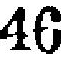46
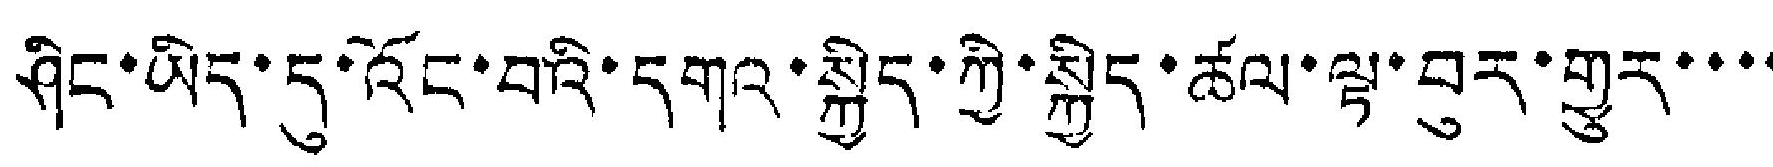ཤིང་ཡིད་དུ་འོང་བའི་དགའ་སྐྱིད་ཀྱི་སྐྱིད་ཚལ་ལྟ་བུར་གྱུར་་་་
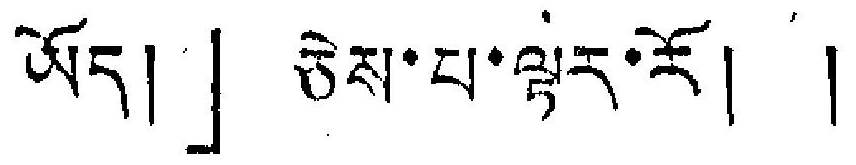ཡོད།」ཅེས་པ་ལྟར་རོ། །
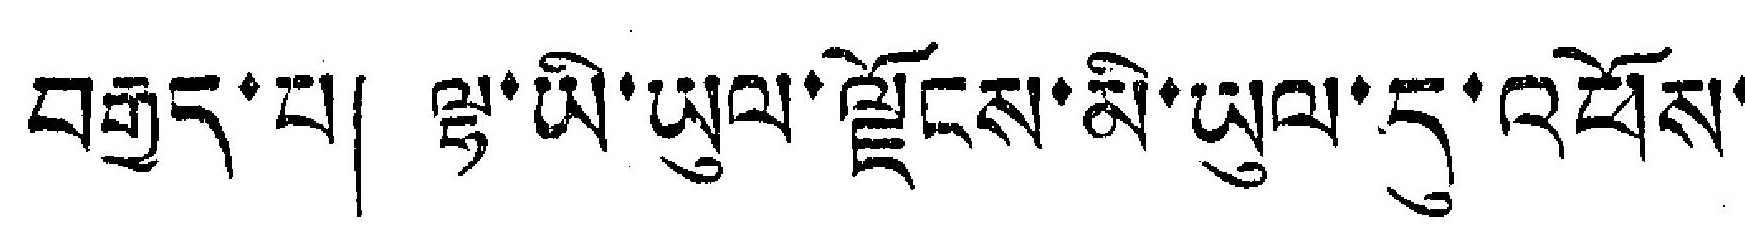བརྒྱད་པ། ལྷ་ཡི་ཡུལ་ལྗོངས་མི་ཡུལ་དུ་འཕོས་
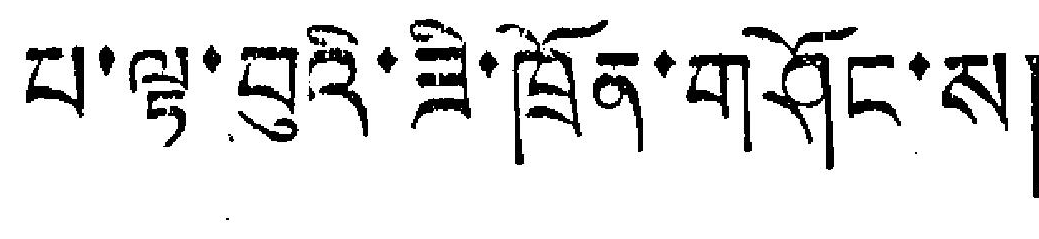པ་ལྟ་བུའི་ཟི་ཁྲོན་གཤོང་ས།
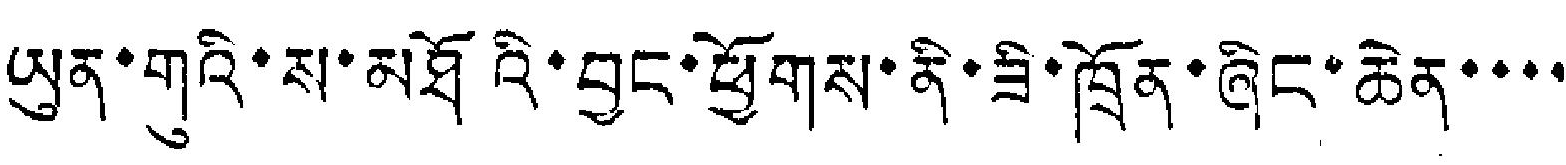ཡུན་གུའི་ས་མཐོའི་བྱང་ཕྱོགས་ནི་ཟི་ཁྲོན་ཞིང་ཆེན་་་་
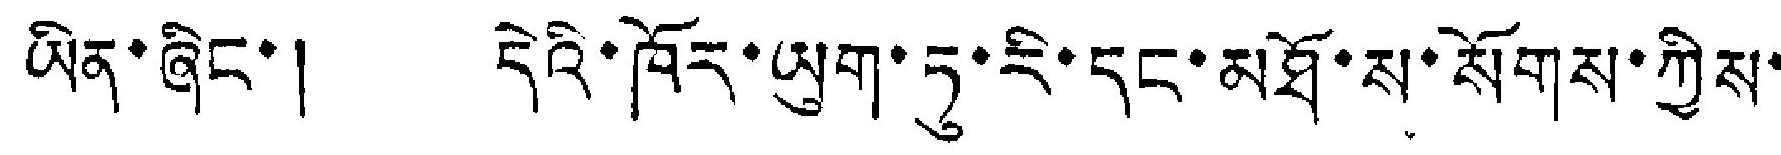ཡིན་ཞིང་། དེའི་ཁོར་ཡུག་ཏུ་རི་དང་མཐོ་ས་སོགས་ཀྱིས་
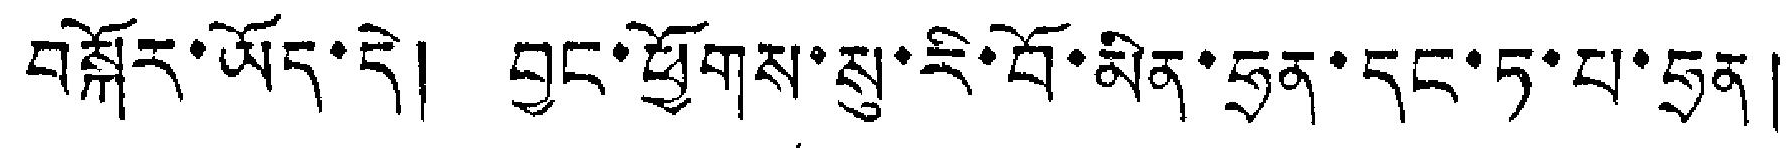བསྐོར་ཡོད་དེ། བྱང་ཕྱོགས་སུ་རི་བོ་མིན་ཧྲན་དང་ཏ་པ་ཧྲན།
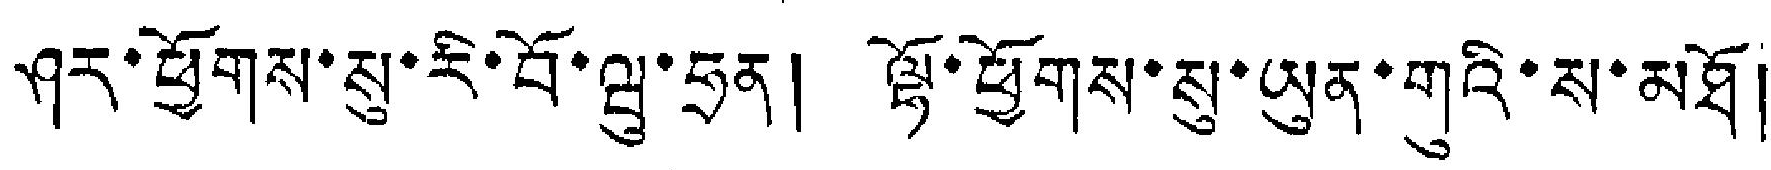ཤར་ཕྱོགས་སུ་རི་བོ་ཝུ་ཧྲན། ལྷོ་ཕྱོགས་སུ་ཡུན་གུའི་ས་མཐོ།
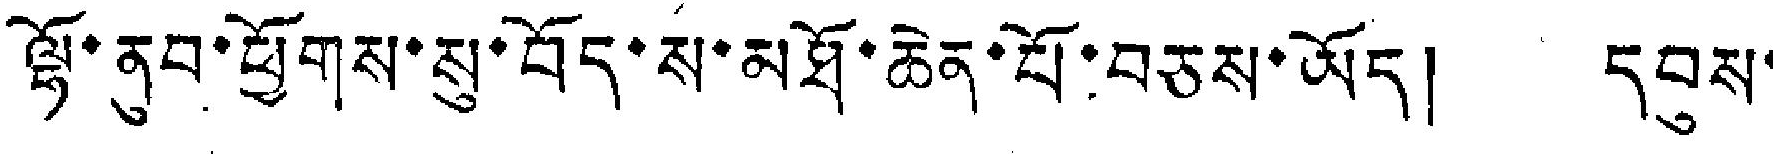ལྷོ་ནུབ་ཕྱོགས་སུ་བོད་ས་མཐོ་ཆེན་པོ་བཅས་ཡོད། དབུས་
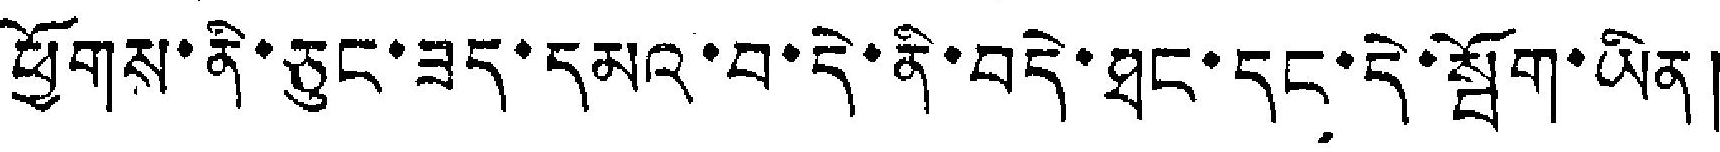ཕྱོགས་ནི་ཅུང་ཟད་དམའ་བ་དེ་ནི་བདེ་ཐང་དང་དེ་སྦོག་ཡིན།
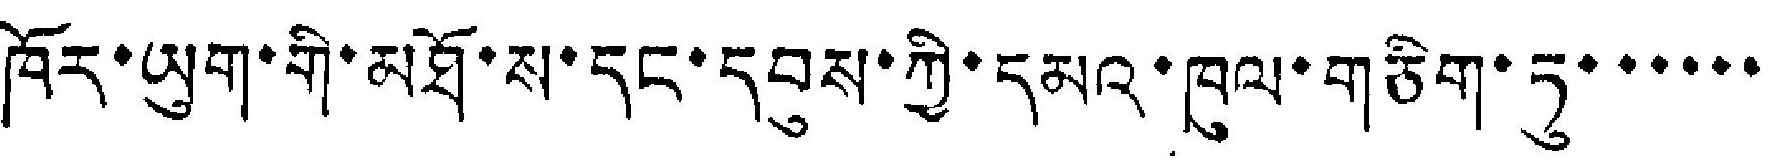ཁོར་ཡུག་གི་མཐོ་ས་དང་དབུས་ཀྱི་དམའ་ཁུལ་གཅིག་ཏུ་་་་་་
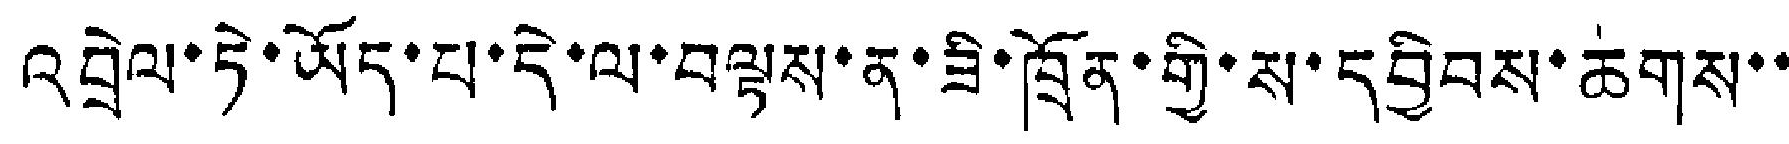འབྲེལ་ཏེ་ཡོད་པ་དེ་ལ་བལྟས་ན་ཟི་ཁྲོན་གྱི་ས་དབྱིབས་ཆགས་་
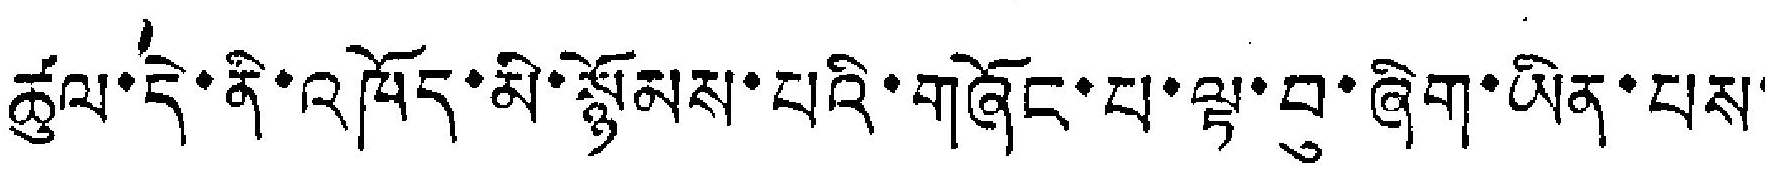ཚུལ་དེ་ནི་འཁོད་མི་སྙོམས་པའི་གཞོང་པ་ལྟ་བུ་ཞིག་ཡིན་པས་
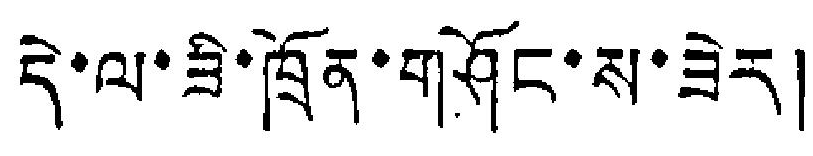དེ་ལ་ཟི་ཁྲོན་གཤོང་ས་ཟེར།
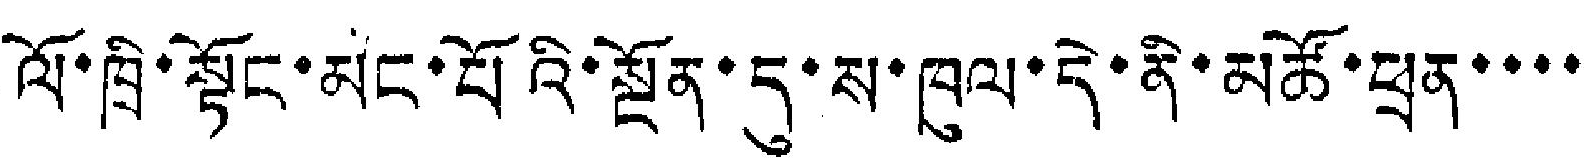ལོ་ཁྲི་སྟོང་མང་པོའི་སྔོན་དུ་ས་ཁུལ་དེ་ནི་མཚོ་ཕྲན་་་་
